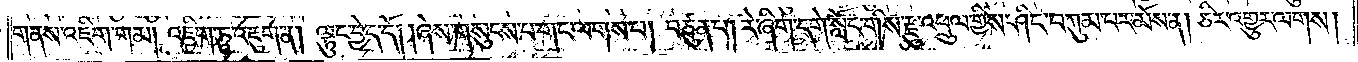གནས་འཇིག་གམ། འཇིག་ཏུ་འཇུག་ན། ལྟུང་བྱེད་དོ། །ཞེས་གསུངས་པ་གང་ལགས་པ། བཙུན་པ། རེ་ཞིག་དགེ་སློང་གིས་རྫུ་འཕྲུལ་གྱིས་ཤིང་བཀུམ་པར་མོས་ན། ཅིར་འགྱུར་ལགས།
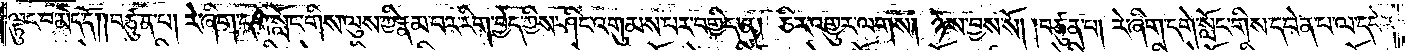ལྟུང་བ་མེད་དོ། །བཙུན་པ། རེ་ཞིག་དགེ་སློང་གིས་ལུས་ཀྱི་རྣམ་པར་རིག་བྱེད་ཀྱིས་ཤིང་འགུམས་པར་བགྱིད་ན། ཅིར་འགྱུར་ལགས། ཉེས་བྱས་སོ། །བཙུན་པ། རེ་ཞིག་དགེ་སློང་གིས་དབེན་པ་ལ་དབེན་
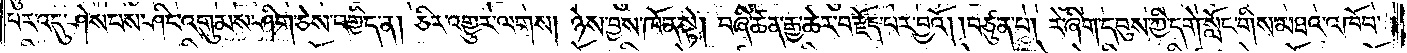པར་འདུ་ཤེས་པས་ཤིང་འགུམས་ཤིག་ཅེས་བགྱིད་ན། ཅིར་འགྱུར་ལགས། ཉེས་བྱས་ཁོ་ན་སྟེ། བཞི་ཚན་རྒྱ་ཆེར་བརྗོད་པར་བྱའོ། །བཙུན་པ། རེ་ཞིག་དབུས་ཀྱི་དགེ་སློང་གིས་མཐའ་འཁོབ་
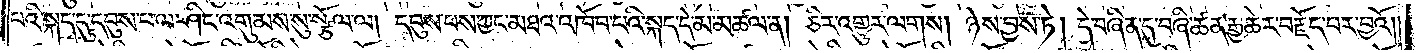པའི་སྐད་དུ་དབུས་པ་ལ་ཤིང་འགུམས་སུ་སྩོལ་ལ། དབུས་པས་ཀྱང་མཐའ་འཁོབ་པའི་སྐད་དེ་མ་མཚལ་ན། ཅིར་འགྱུར་ལགས། ཉེས་བྱས་ཏེ། དེ་བཞིན་དུ་བཞི་ཚན་རྒྱ་ཆེར་བརྗོད་པར་བྱའོ༎
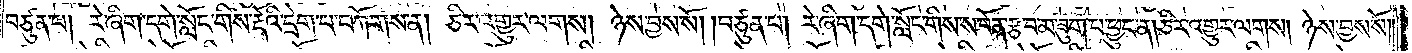བཙུན་པ། རེ་ཞིག་དགེ་སློང་གིས་རྡོའི་དྲེག་པ་བཀོགས་ན། ཅིར་འགྱུར་ལགས། ཉེས་བྱས་སོ། །བཙུན་པ། རེ་ཞིག་དགེ་སློང་གིས་ས་བོན་རྩ་བ་མ་ཟུག་པ་ཕྱུང་ན།ཅིར་འགྱུར་ལགས། ཉེས་བྱས་སོ༎
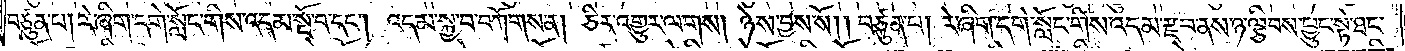བཙུན་པ། རེ་ཞིག་དགེ་སློང་གིས་འདམ་སྔོ་བ་དང༌། འདམ་སྐྱ་བ་བཀོགས་ནས། ཅིར་འགྱུར་ལགས། ཉེས་བྱས་སོ། །བཙུན་པ། རེ་ཞིག་དགེ་སློང་གིས་འདམ་རྫབ་ནས་ཉ་ལྕིབས་ཕྱུང་སྟེ་ཐང་
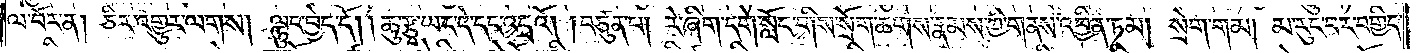ལ་བོར་ན། ཅིར་འགྱུར་ལགས། ལྟུང་བྱེད་དོ། །ཆུ་རྩྭ་ཡང་དེ་དང་འདྲའོ། །བཙུན་པ། རེ་ཞིག་དགེ་སློང་གིས་སྲོག་ཆགས་རྣམས་ཀྱི་གནས་འབྱིན་ཏམ། སྲེག་གམ། མ་རུང་བར་བགྱིད་
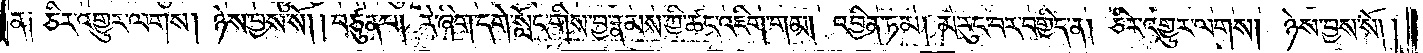ན༑ ཅིར་འགྱུར་ལགས། ཉེས་བྱས་སོ། །བཙུན་པ། རེ་ཞིག་དགེ་སློང་གིས་བྱ་རྣམས་ཀྱི་ཚང་འཇིག་གམ། འབྱིན་ཏམ། མ་རུང་བར་བགྱིད་ན། ཅིར་འགྱུར་ལགས། ཉེས་བྱས་སོ༎
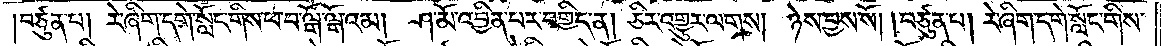བཙུན་པ། རེ་ཞིག་དགེ་སློང་གིས་ཕ་བ་ལྒོ་ལྒོ་འམ། ཤ་མོ་འབྱིན་པར་བགྱིད་ན། ཅིར་འགྱུར་ལགས། ཉེས་བྱས་སོ། །བཙུན་པ། རེ་ཞིག་དགེ་སློང་གིས་
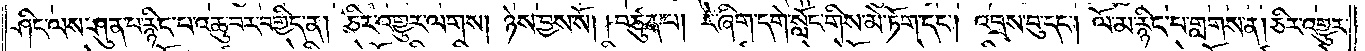ཤིང་ལས་ཤུན་པ་རྙིང་པ་འཆུ་བར་བགྱིད་ན། ཅིར་འགྱུར་ལགས། ཉེས་བྱས་སོ། །བཙུན་པ། རེ་ཞིག་དགེ་སློང་གིས་མེ་ཏོག་དང༌། འབྲས་བུ་དང༌། ལོ་མ་རྙིང་པ་གླགས་ན། ཅིར་འགྱུར་
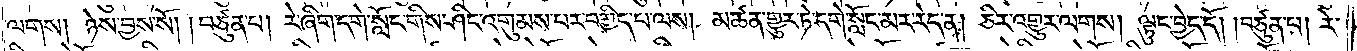ལགས། ཉེས་བྱས་སོ། །བཙུན་པ། རེ་ཞིག་དགེ་སློང་གིས་ཤིང་འགུམས་པར་བགྱིད་པ་ལས། མཚན་གྱུར་ཏེ་དགེ་སློང་མར་རེད་ན། ཅིར་འགྱུར་ལགས། ལྟུང་བྱེད་དོ། །བཙུན་པ། རེ་
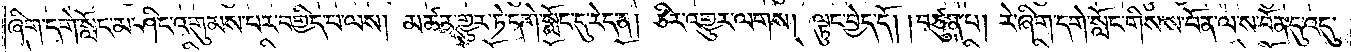ཞིག་དགེ་སློང་མ་ཤིང་འགུམས་པར་བགྱིད་པ་ལས། མཚན་གྱུར་ཏེ་དགེ་སློང་དུ་རེད་ན། ཅིར་འགྱུར་ལགས། ལྟུང་བྱེད་དོ། །བཙུན་པ། རེ་ཞིག་དགེ་སློང་གིས་ས་བོན་ལ་ས་བོན་དུ་འདུ་
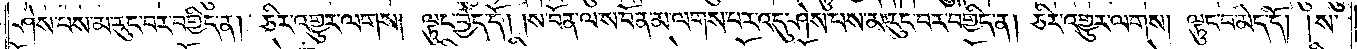ཤེས་པས་མ་རུང་བར་བགྱིད་ན། ཅིར་འགྱུར་ལགས། ལྟུང་བྱེད་དོ། །ས་བོན་ལ་ས་བོན་མ་ལགས་པར་འདུ་ཤེས་པས་མ་རུང་བར་བགྱིད་ན། ཅིར་འགྱུར་ལགས། ལྟུང་བ་མེད་དོ། །ས་
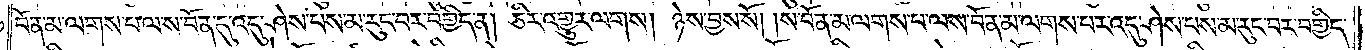བོན་མ་ལགས་པ་ལ་ས་བོན་དུ་འདུ་ཤེས་པས་མ་རུང་བར་བགྱིད་ན། ཅིར་འགྱུར་ལགས། ཉེས་བྱས་སོ། །ས་བོན་མ་ལགས་པ་ལ་ས་བོན་མ་ལགས་པར་འདུ་ཤེས་པས་མ་རུང་བར་བགྱིད་
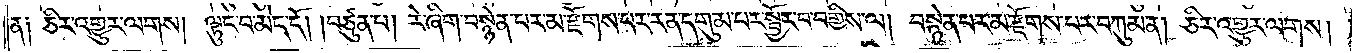ན༑ ཅིར་འགྱུར་ལགས། ལྟུང་བ་མེད་དོ། །བཙུན་པ། རེ་ཞིག་བསྙེན་པར་མ་རྫོགས་པར་རན་དགུམ་པར་སྦྱོར་བ་བགྱིས་ལ། བསྙེན་པར་མ་རྫོགས་པར་བཀུམ་ན། ཅིར་འགྱུར་ལགས།
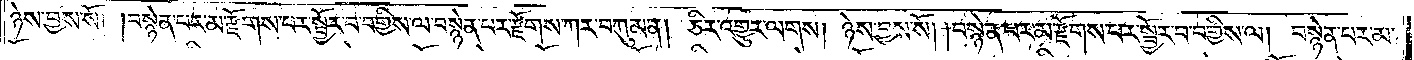ཉེས་བྱས་སོ། །བསྙེན་པར་མ་རྫོགས་པར་སྦྱོར་བ་བགྱིས་ལ་བསྙེན་པར་རྫོགས་ཀར་བཀུམ་ན། ཅིར་འགྱུར་ལགས། ཉེས་བྱས་སོ། །བསྙེན་པར་མ་རྫོགས་པར་སྦྱོར་བ་བགྱིས་ལ། བསྙེན་པར་མ་
